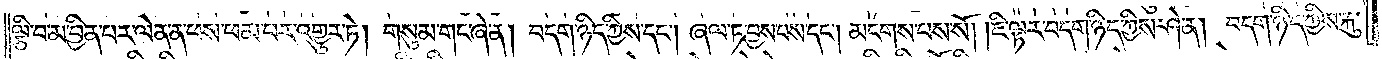ལྕི་བ་མ་བྱིན་པར་ལེན་ན་ཕས་ཕམ་པར་འགྱུར་ཏེ། གསུམ་གང་ཞེ་ན། བདག་ཉིད་ཀྱིས་དང༌། ཞལ་ཏ་བྱས་པས་དང༌། མངགས་པས་སོ། །ཇི་ལྟར་བདག་ཉིད་ཀྱིས་ཤེ་ན། བདག་ཉིད་ཀྱིས་རྐུ་
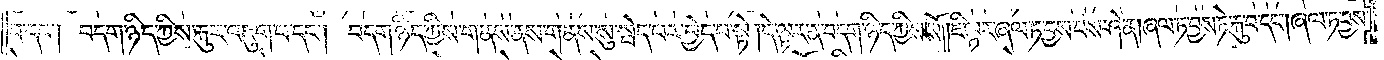བ་དང༌། བདག་ཉིད་ཀྱིས་རྐུར་འཇུག་པ་དང༌། བདག་ཉིད་ཀྱིས་གནས་ནས་གནས་སུ་སྦེད་པར་བྱེད་པ་སྟེ། དེ་ལྟར་ན་བདག་ཉིད་ཀྱིས་སོ། །ཇི་ལྟར་ཞལ་ཏ་བྱས་པས་ཤེ་ན། ཞལ་ཏ་བྱས་ཏེ་རྐུ་བ་དང༌། ཞལ་ཏ་བྱས་
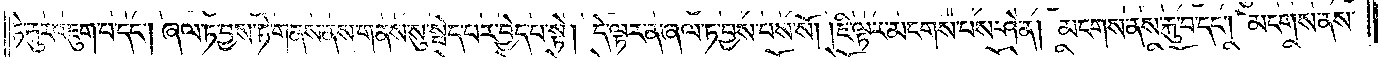ཏེ་རྐུར་འཇུག་པ་དང༌། ཞལ་ཏ་བྱས་ཏེ་གནས་ནས་གནས་སུ་སྦེད་པར་བྱེད་པ་སྟེ། དེ་ལྟར་ན་ཞལ་ཏ་བྱས་པས་སོ། །ཇི་ལྟར་མངགས་པས་ཤེ་ན། མངགས་ནས་རྐུ་བ་དང༌། མངགས་ནས་
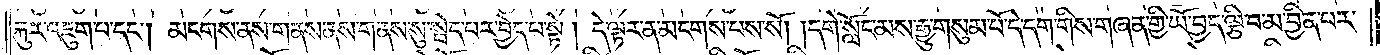རྐུར་འཇུག་པ་དང༌། མངགས་ནས་གནས་ནས་གནས་སུ་སྦེད་པར་བྱེད་པ་སྟེ། དེ་ལྟར་ན་མངགས་པས་སོ། །དགེ་སློང་མས་རྒྱུ་གསུམ་པོ་དེ་དག་གིས་གཞན་གྱི་ཡོ་བྱད་ལྕི་བ་མ་བྱིན་པར་
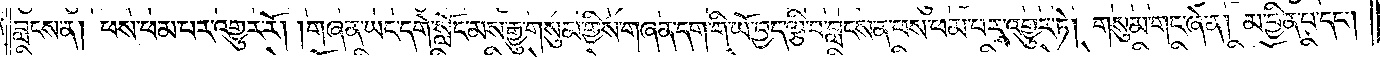བླངས་ན། ཕས་ཕམ་པར་འགྱུར་རོ། །གཞན་ཡང་དགེ་སློང་མས་རྒྱུ་གསུམ་གྱིས་གཞན་དག་གི་ཡོ་བྱད་ལྕི་བ་བླངས་ན་ཕས་ཕམ་པར་འགྱུར་ཏེ། གསུམ་གང་ཞེ་ན། མ་བྱིན་པ་དང༌།
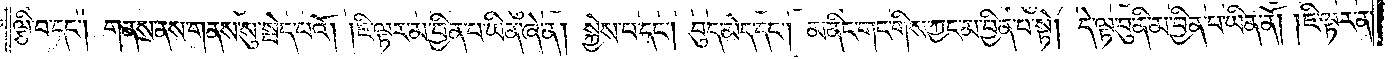ལྕི་བ་དང༌། གནས་ནས་གནས་སུ་སྦེད་པའོ། །ཇི་ལྟར་མ་བྱིན་པ་ཡིན་ཞེ་ན། སྐྱེས་པ་དང༌། བུད་མེད་དང༌། མ་ནིང་གང་གིས་ཀྱང་མ་བྱིན་པ་སྟེ། དེ་ལྟ་བུ་ནི་མ་བྱིན་པ་ཡིན་ནོ། །ཇི་ལྟར་ན་
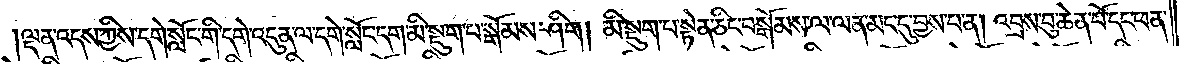ལྡན་འདས་ཀྱིས་དགེ་སློང་གི་དགེ་འདུན་ལ་དགེ་སློང་དག་མི་སྡུག་པ་སྒོམས་ཤིག། མི་སྡུག་པ་སྟེན་ཅིང་བསྒོམས་ལ་ལན་མང་དུ་བྱས་པ་ན། འབྲས་བུ་ཆེན་པོ་དང་ཕན་
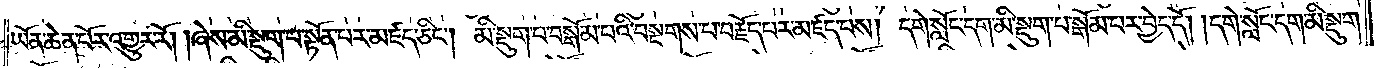ཡོན་ཆེན་པོར་འགྱུར་རོ། །ཞེས་མི་སྡུག་པ་སྟོན་པར་མཛད་ཅིང༌། མི་སྡུག་པ་བསྒོམ་པའི་བསྔགས་པ་བརྗོད་པར་མཛད་པས། དགེ་སློང་དག་མི་སྡུག་པ་སྒོམ་པར་བྱེད་དོ། །དགེ་སློང་དག་མི་སྡུག་
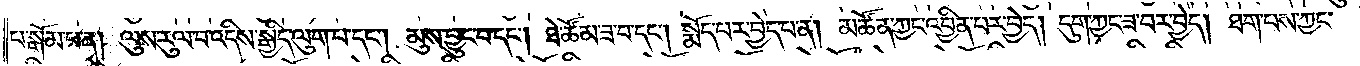པ་སྒོམ་པ་ན། ལུས་རུལ་བ་འདིས་སྒྱིད་ལུག་པ་དང༌། མུས་བྱུང་བ་དང༌། ཐེ་ཚོམ་ཟ་བ་དང༌། སྨོད་པར་བྱེད་པ་ན། མཚོན་ཀྱང་འབྱིན་པར་བྱེད། དུག་ཀྱང་ཟ་བར་བྱེད། ཐག་པས་ཀྱང་
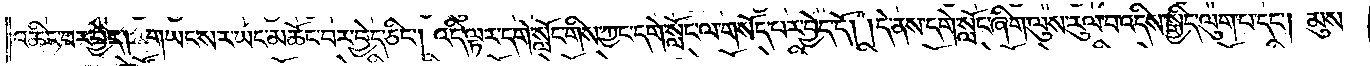འཆིང་བར་བྱེད། གཡང་སར་ཡང་མཆོང་བར་བྱེད་ཅིང༌། འདི་ལྟར་དགེ་སློང་གིས་ཀྱང་དགེ་སློང་ལ་གསོད་པར་བྱེད་དོ། །དེ་ནས་དགེ་སློང་ཞིག་ལུས་རུལ་བ་འདིས་སྒྱིད་ལུག་པ་དང༌། མུས་
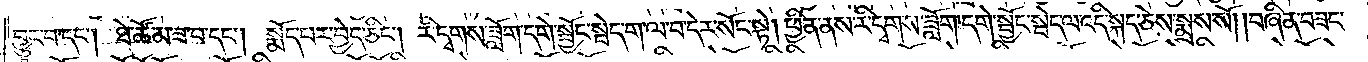བྱུང་བ་དང༌། ཐེ་ཚོམ་ཟ་བ་དང༌། སྨོད་པར་བྱེད་ཅིང༌། རི་དྭགས་ཟློག་དགེ་སྦྱོང་སྦེད་ག་ལ་བ་དེར་སོང་སྟེ། ཕྱིན་ནས་རི་དྭགས་ཟློག་དགེ་སྦྱོང་སྦེད་ལ་འདི་སྐད་ཅེས་སྨྲས་སོ། །བཞིན་བཟང་
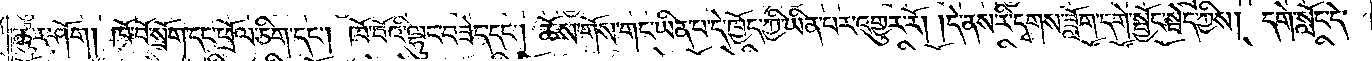ཚུར་ཤོག། ཁོ་བོ་སྲོག་དང་ཕྲོལ་ཅིག་དང༌། ཁོ་བོའི་ལྷུང་བཟེད་དང༌། ཆོས་གོས་གང་ཡིན་པ་དེ་ཁྱོད་ཀྱི་ཡིན་པར་འགྱུར་རོ། །དེ་ནས་རི་དྭགས་ཟློག་དགེ་སྦྱོང་སྦེད་ཀྱིས། དགེ་སློང་དེ་
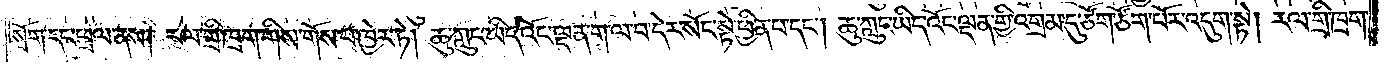སྲོག་དང་ཕྲལ་ནས། རལ་གྲི་ཁྲག་གིས་གོས་པ་ཁྱེར་ཏེ། ཆུ་ཀླུང་ཡིད་འོང་ལྡན་ག་ལ་བ་དེར་སོང་སྟེ་ཕྱིན་པ་དང༌། ཆུ་ཀླུང་ཡིད་འོང་ལྡན་གྱི་འགྲམ་དུ་ཙོག་ཙོག་པོར་འདུག་སྟེ། རལ་གྲི་ཁྲག་
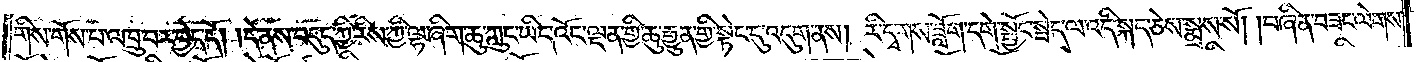གིས་གོས་པ་འཁྲུ་བར་བྱེད་དོ། །དེ་ནས་བདུད་ཀྱི་རིས་ཀྱི་ལྷ་ཞིག་ཆུ་ཀླུང་ཡིད་འོང་ལྡན་གྱི་ཆུ་རྒྱུན་གྱི་སྟེང་དུ་འདུག་ནས། རི་དྭགས་ཟློག་དགེ་སྦྱོང་སྦེད་ལ་འདི་སྐད་ཅེས་སྨྲས་སོ། །བཞིན་བཟང་ལེགས་
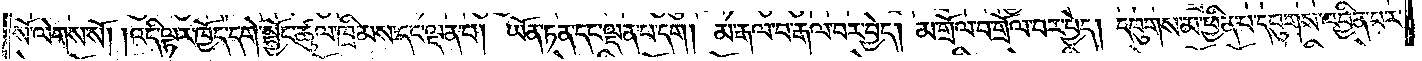སོ་ལེགས་སོ། །འདི་ལྟར་ཁྱོད་དགེ་སྦྱོང་ཚུལ་ཁྲིམས་དང་ལྡན་པ། ཡོན་ཏན་དང་ལྡན་པ་དག །མ་རྒལ་བ་རྒལ་བར་བྱེད། མ་གྲོལ་བ་གྲོལ་བར་བྱེད། དབུགས་མ་ཕྱིན་པ་དབུགས་འབྱིན་པར་
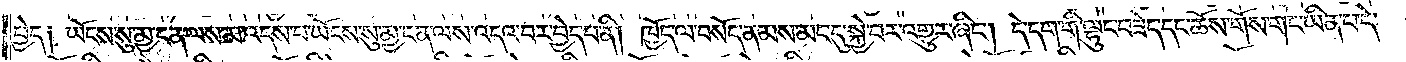བྱེད༑ ཡོངས་སུ་མྱ་ངན་ལས་མ་འདས་པ་ཡོངས་སུ་མྱ་ངན་ལས་འདའ་བར་བྱེད་པ་ནི། ཁྱོད་ལ་བསོད་ནམས་མང་དུ་སྐྱེ་བར་འགྱུར་ཞིང༌། དེ་དག་གི་ལྷུང་བཟེད་དང་ཆོས་གོས་གང་ཡིན་པ་དེ་
